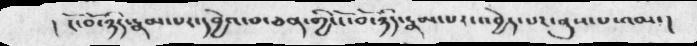།  ངོ་བོ་ཉིད་རྣམ་པར་དབྱེའ་བ་ཅན་གྱི་ངོ་བོ་ཉིད་རྣམ་པར་འབྱེད་པར་ནུས་པ་འམ་།
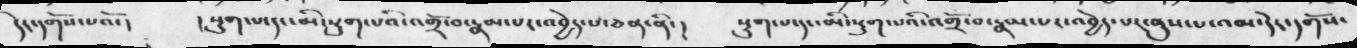དེར་དགོས་པའོ་།     ། སྡུག་པ་དང་མི་སྡུག་པའི་འགྲོ་བ་རྣམ་པར་འབྱེད་པ་ཅན་ནི་།    སྡུག་པ་དང་མི་སྡུག་པའི་འགྲོ་བ་རྣམ་པར་འབྱེད་པ་ནུས་པ་འམ་དེར་དགོས་
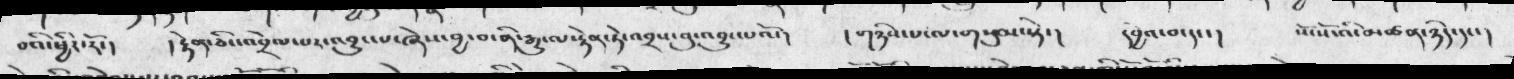བའི་ཕྱིར་རོ་།    ། རྟེན་ཅིང་འབྲེལ་པར་འབྱུང་པ་ཞེས་བྱ་བ་ནི་རྒྱུ་ལ་རྟེན་ཏེ་འབྲས་བུ་འབྱུང་པའོ་།     ། གཉིས་པ་ལ་གསུམ་སྟེ་།   དབྱེའ་བ་དང་།   སོ་སོའི་མཚན་ཉིད་དང་།
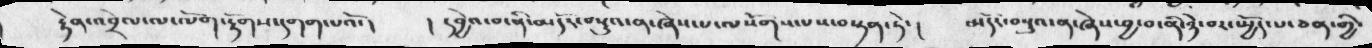རྟེན་འབྲེལ་ལ་ལོག་རྟོགས་དགག་པའོ་།   ། དབྱེའ་བ་ནི་མདོར་བསྡུའ་ན་ཞེས་པ་ལསོགས་པས་བསྟན་ཏེ་།   མདོར་བསྡུའ་ན་ཞེས་བྱ་བ་ནི་ཉེ་བར་སྤྱོད་པ་ཅན་གྱི་
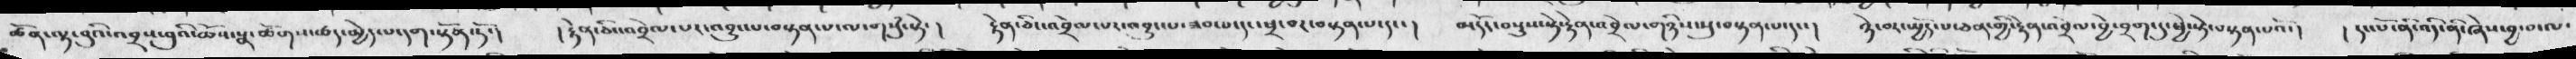ཚོན་ལྟ་བུའི་འབྲས་བུའི་ཆོས་སྣ་ཚོགས་ཚད་མྱེད་པ་དག་སྟོན་ཏོ་།  །རྟེན་ཅིང་འབྲེལ་པར་འབྱུང་པ་བསྟན་པ་ལ་གསུཾ་སྟེ་།   རྟེན་ཅིང་འབྲེལ་པར་འབྱུང་པ་ཟབ་པ་དང་ཕྲ་བར་བསྟན་པ་དང་།   མདོར་བསྡུས་སྟེ་རྟེན་འབྲེལ་གཉིས་སུ་བསྟན་པ་དང་།   ཉེ་བར་སྤྱོད་པ་ཕན་གྱི་རྟེན་འབྲེལ་བྱེ་བྲག་དུ་ཕྱེ་སྟེ་བསྟན་པའོ་།   ། དང་པོ་ནི་འདི་ནི་ཞེས་བྱ་བ་ལ་
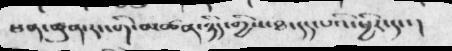ཕན་ཚུན་རང་གི་མཚན་ཉིད་གྱི་ཐ་དད་པའི་ཕྱིར་དང་།
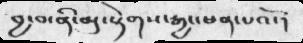བྱ་བ་ནི་མུ་སྟེགས་རྒྱང་ཕན་པའོ་།
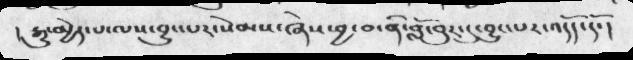།  རྒྱུ་མྱེད་པ་ལས་བྱུང་པར་སེམས་ཞེས་བྱ་བ་ནི་བློ་བུར་དུ་བྱུང་པར་འདོད་དོ་།
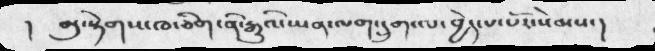།  མུ་སྟེགས་ཁ་ཅིག་ནི་རྒྱུའི་ཡན་ལག་དྲུག་ལ་བྱེད་པ་པོར་སེམས་།
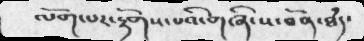ལོག་པར་རྟོགས་པའི་གཞི་ས་བོན་ཐྃད་
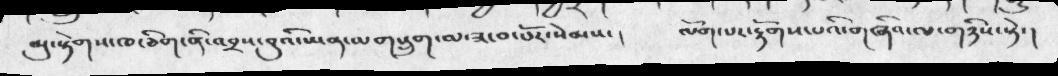མུ་སྟེགས་ཁ་ཅིག་ནི་འབྲས་བུའི་ཡན་ལག་དྲུག་ལ་ཟ་བ་པོར་སེམས་།       ལོག་པར་རྟོགས་པའི་གཞིའ་ལ་གཉིས་སྟེ་།
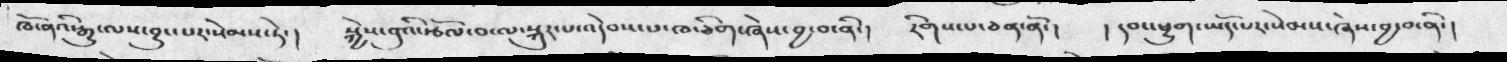ཁོ་ནའི་རྒྱུ་ལས་བྱུང་པར་སེམས་ཏེ་།     སྐྱེས་བུའི་རྩོལ་བ་ལ་སྐུར་པ་འདེབས་པ་ཁ་ཅིག་ཞེས་བྱ་བ་ནི་།   རིགས་པ་ཅན་ནོ་།   ། དབང་ཕྱུག་ཡོད་པར་སེམས་ཞེས་བྱ་བ་ནི་།
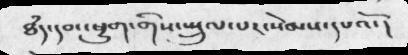ཐཾད་དབང་ཕྱུག་གིས་སྤྲུལ་པར་སེམས་དཔའོ་།
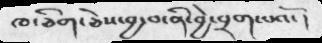ཁ་ཅིག་ཅེས་བྱ་བ་ནི་བྱེ་བྲག་པའོ་།
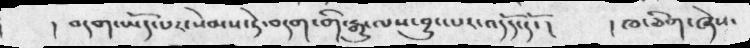།  བདག་ཡོད་པར་སེམས་དེ་བདག་གི་རྒྱུ་ལས་བྱུང་པར་འདོད་དོ་།       ། ཁ་ཅིག་ཞེས་
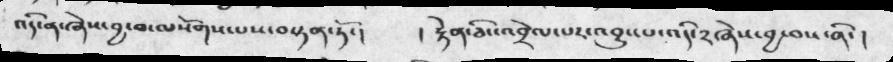འདི་ན་ཞེས་བྱ་བ་ལསོགས་པས་བསྟན་ཏོ་།    ། རྟེན་ཅིང་འབྲེལ་པར་འབྱུང་པ་འདི་༢ཞེས་བྱ་བས་ནི་།
